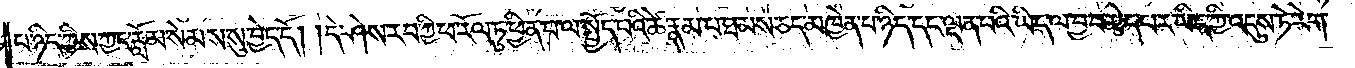པ་ཉིད་ཀྱིས་ཀྱང་རློམ་སེམས་སུ་བྱེད་དོ། །དེ་ཤེས་རབ་ཀྱི་ཕ་རོལ་ཏུ་ཕྱིན་པ་ལ་སྤྱོད་པའི་ཚེ་རྣམ་པ་ཐམས་ཅད་མཁྱེན་པ་ཉིད་དང་ལྡན་པའི་ཡིད་ལ་བྱ་བ་མེད་པར་ཡིད་ཀྱི་འདུས་ཏེ་རེག་
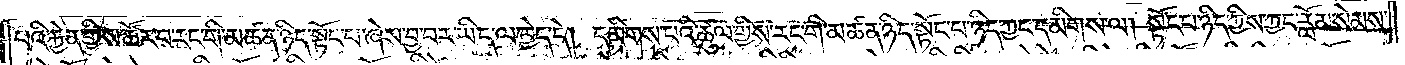པའི་རྐྱེན་གྱིས་ཚོར་བ་རང་གི་མཚན་ཉིད་སྟོང་པ་ཞེས་བྱ་བར་ཡིད་ལ་བྱེད་དེ། དམིགས་པའི་ཚུལ་གྱིས་རང་གི་མཚན་ཉིད་སྟོང་པ་ཉིད་ཀྱང་དམིགས་ལ། སྟོང་པ་ཉིད་ཀྱིས་ཀྱང་རློམ་སེམས་
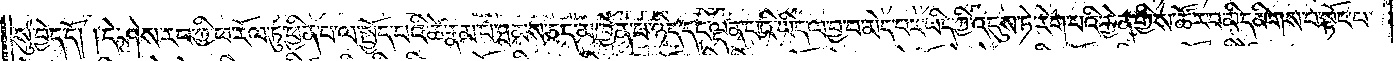སུ་བྱེད་དོ། །དེ་ཤེས་རབ་ཀྱི་ཕ་རོལ་ཏུ་ཕྱིན་པ་ལ་སྤྱོད་པའི་ཚེ་རྣམ་པ་ཐམས་ཅད་མཁྱེན་པ་ཉིད་དང་ལྡན་པའི་ཡིད་ལ་བྱ་བ་མེད་པར་ཡིད་ཀྱི་འདུས་ཏེ་རེག་པའི་རྐྱེན་གྱིས་ཚོར་བ་མི་དམིགས་པ་སྟོང་པ་
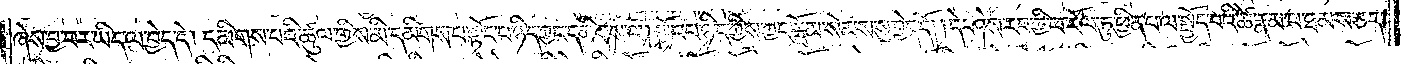ཞེས་བྱ་བར་ཡིད་ལ་བྱེད་དེ། དམིགས་པའི་ཚུལ་གྱིས་མི་དམིགས་པ་སྟོང་པ་ཉིད་ཀྱིས་ཀྱང་དམིགས་ལ། སྟོང་པ་ཉིད་ཀྱིས་ཀྱང་རློམ་སེམས་སུ་བྱེད་དོ། །དེ་ཤེས་རབ་ཀྱི་ཕ་རོལ་ཏུ་ཕྱིན་པ་ལ་སྤྱོད་པའི་ཚེ་རྣམ་པ་ཐམས་ཅད་
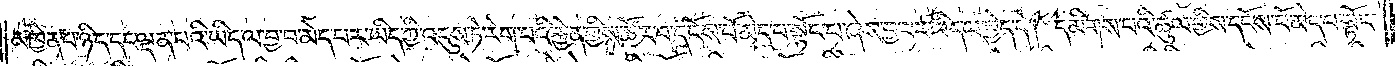མཁྱེན་པ་ཉིད་དང་ལྡན་པའི་ཡིད་ལ་བྱ་བ་མེད་པར་ཡིད་ཀྱི་འདུས་ཏེ་རེག་པའི་རྐྱེན་གྱིས་ཚོར་བ་དངོས་པོ་མེད་པ་སྟོང་པ་ཞེས་བྱ་བར་ཡིད་ལ་བྱེད་དེ། དམིགས་པའི་ཚུལ་གྱིས་དངོས་པོ་མེད་པ་སྟོང་
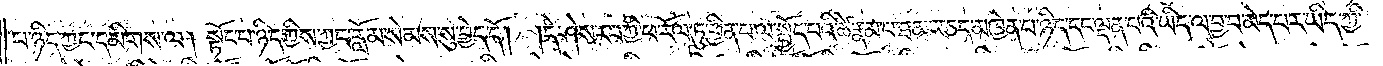པ་ཉིད་ཀྱང་དམིགས་ལ། སྟོང་པ་ཉིད་ཀྱིས་ཀྱང་རློམ་སེམས་སུ་བྱེད་དོ། །དེ་ཤེས་རབ་ཀྱི་ཕ་རོལ་ཏུ་ཕྱིན་པ་ལ་སྤྱོད་པའི་ཚེ་རྣམ་པ་ཐམས་ཅད་མཁྱེན་པ་ཉིད་དང་ལྡན་པའི་ཡིད་ལ་བྱ་བ་མེད་པར་ཡིད་ཀྱི་
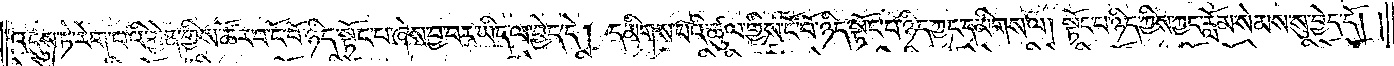འདུས་ཏེ་རེག་པའི་རྐྱེན་གྱིས་ཚོར་བ་ངོ་བོ་ཉིད་སྟོང་པ་ཞེས་བྱ་བར་ཡིད་ལ་བྱེད་དེ། དམིགས་པའི་ཚུལ་གྱིས་ངོ་བོ་ཉིད་སྟོང་པ་ཉིད་ཀྱང་དམིགས་ལ། སྟོང་པ་ཉིད་ཀྱིས་ཀྱང་རློམ་སེམས་སུ་བྱེད་དོ། །
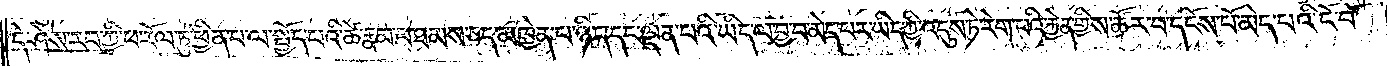དེ་ཤེས་རབ་ཀྱི་ཕ་རོལ་ཏུ་ཕྱིན་པ་ལ་སྤྱོད་པའི་ཚེ་རྣམ་པ་ཐམས་ཅད་མཁྱེན་པ་ཉིད་དང་ལྡན་པའི་ཡིད་ལ་བྱ་བ་མེད་པར་ཡིད་ཀྱི་འདུས་ཏེ་རེག་པའི་རྐྱེན་གྱིས་ཚོར་བ་དངོས་པོ་མེད་པའི་ངོ་བོ་
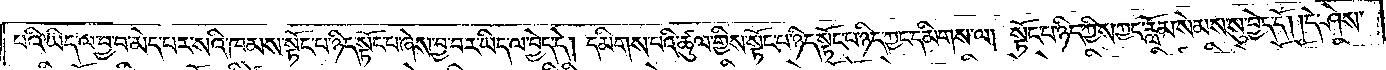པའི་ཡིད་ལ་བྱ་བ་མེད་པར་སའི་ཁམས་སྟོང་པ་ཉིད་སྟོང་པ་ཞེས་བྱ་བར་ཡིད་ལ་བྱེད་དེ། དམིགས་པའི་ཚུལ་གྱིས་སྟོང་པ་ཉིད་སྟོང་པ་ཉིད་ཀྱང་དམིགས་ལ། སྟོང་པ་ཉིད་ཀྱིས་ཀྱང་རློམ་སེམས་སུ་བྱེད་དོ། །དེ་ཤེས་
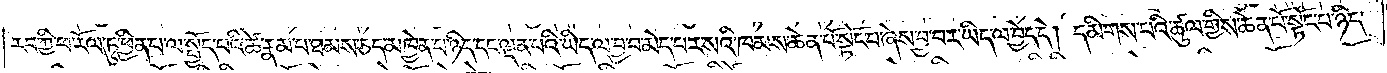རབ་ཀྱི་ཕ་རོལ་ཏུ་ཕྱིན་པ་ལ་སྤྱོད་པའི་ཚེ་རྣམ་པ་ཐམས་ཅད་མཁྱེན་པ་ཉིད་དང་ལྡན་པའི་ཡིད་ལ་བྱ་བ་མེད་པར་སའི་ཁམས་ཆེན་པོ་སྟོང་པ་ཞེས་བྱ་བར་ཡིད་ལ་བྱེད་དེ། དམིགས་པའི་ཚུལ་གྱིས་ཆེན་པོ་སྟོང་པ་ཉིད་
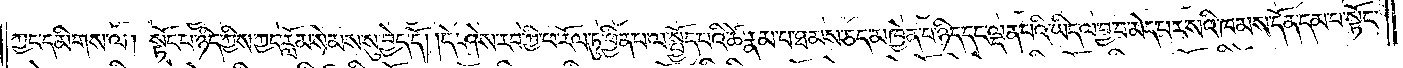ཀྱང་དམིགས་ལ། སྟོང་པ་ཉིད་ཀྱིས་ཀྱང་རློམ་སེམས་སུ་བྱེད་དོ། །དེ་ཤེས་རབ་ཀྱི་ཕ་རོལ་ཏུ་ཕྱིན་པ་ལ་སྤྱོད་པའི་ཚེ་རྣམ་པ་ཐམས་ཅད་མཁྱེན་པ་ཉིད་དང་ལྡན་པའི་ཡིད་ལ་བྱ་བ་མེད་པར་སའི་ཁམས་དོན་དམ་པ་སྟོང་
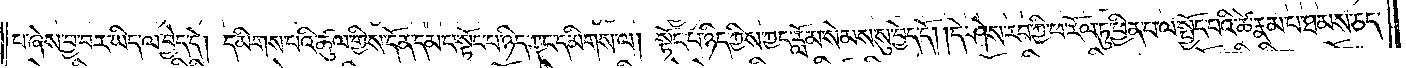པ་ཞེས་བྱ་བར་ཡིད་ལ་བྱེད་དེ། དམིགས་པའི་ཚུལ་གྱིས་དོན་དམ་པ་སྟོང་པ་ཉིད་ཀྱང་དམིགས་ལ། སྟོང་པ་ཉིད་ཀྱིས་ཀྱང་རློམ་སེམས་སུ་བྱེད་དོ། །དེ་ཤེས་རབ་ཀྱི་ཕ་རོལ་ཏུ་ཕྱིན་པ་ལ་སྤྱོད་པའི་ཚེ་རྣམ་པ་ཐམས་ཅད་
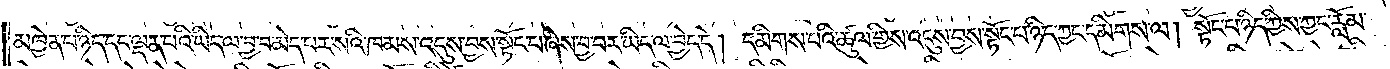མཁྱེན་པ་ཉིད་དང་ལྡན་པའི་ཡིད་ལ་བྱ་བ་མེད་པར་སའི་ཁམས་འདུས་བྱས་སྟོང་པ་ཞེས་བྱ་བར་ཡིད་ལ་བྱེད་དེ། དམིགས་པའི་ཚུལ་གྱིས་འདུས་བྱས་སྟོང་པ་ཉིད་ཀྱང་དམིགས་ལ། སྟོང་པ་ཉིད་ཀྱིས་ཀྱང་རློམ་
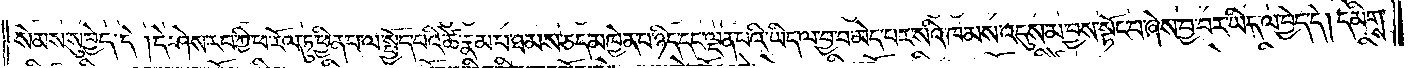སེམས་སུ་བྱེད་དེ། །དེ་ཤེས་རབ་ཀྱི་ཕ་རོལ་ཏུ་ཕྱིན་པ་ལ་སྤྱོད་པའི་ཚེ་རྣམ་པ་ཐམས་ཅད་མཁྱེན་པ་ཉིད་དང་ལྡན་པའི་ཡིད་ལ་བྱ་བ་མེད་པར་སའི་ཁམས་འདུས་མ་བྱས་སྟོང་པ་ཞེས་བྱ་བར་ཡིད་ལ་བྱེད་དེ། དམིགས་
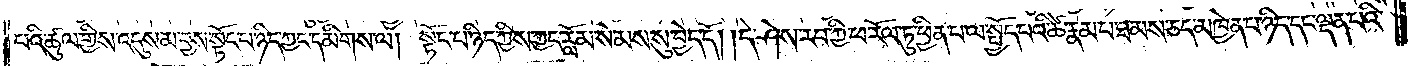པའི་ཚུལ་གྱིས་འདུས་མ་བྱས་སྟོང་པ་ཉིད་ཀྱང་དམིགས་ལ། སྟོང་པ་ཉིད་ཀྱིས་ཀྱང་རློམ་སེམས་སུ་བྱེད་དོ། །དེ་ཤེས་རབ་ཀྱི་ཕ་རོལ་ཏུ་ཕྱིན་པ་ལ་སྤྱོད་པའི་ཚེ་རྣམ་པ་ཐམས་ཅད་མཁྱེན་པ་ཉིད་དང་ལྡན་པའི་
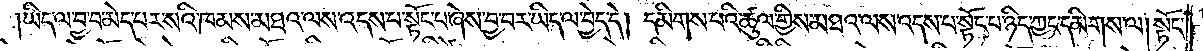ཡིད་ལ་བྱ་བ་མེད་པར་སའི་ཁམས་མཐའ་ལས་འདས་པ་སྟོང་པ་ཞེས་བྱ་བར་ཡིད་ལ་བྱེད་དེ། དམིགས་པའི་ཚུལ་གྱིས་མཐའ་ལས་འདས་པ་སྟོང་པ་ཉིད་ཀྱང་དམིགས་ལ། སྟོང་
